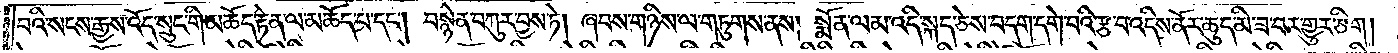བའི་སངས་རྒྱས་འོད་སྲུང་གི་མཆོད་རྟེན་ལ་མཆོད་པ་དང༌། བསྙེན་བཀུར་བྱས་ཏེ། ཞབས་གཉིས་ལ་གཏུགས་ནས། སྨོན་ལམ་འདི་སྐད་ཅེས་བདག་དགེ་བའི་རྩ་བ་འདིས་ནོར་ཆུད་མི་ཟ་བར་གྱུར་ཅིག །
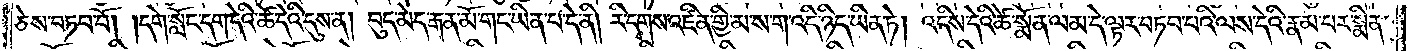ཅེས་བཏབ་བོ། །དགེ་སློང་དག་དེའི་ཚེ་དེའི་དུས་ན། བུད་མེད་རྒན་མོ་གང་ཡིན་པ་དེ་ནི། རི་དྭགས་འཛིན་གྱི་མ་ས་ག་འདི་ཉིད་ཡིན་ཏེ། འདིས་དེའི་ཚེ་སྨོན་ལམ་དེ་ལྟར་བཏབ་པའི་ལས་དེའི་རྣམ་པར་སྨིན་
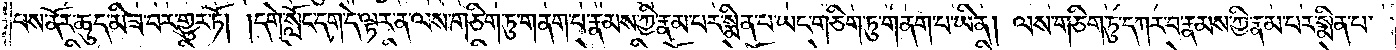པས་ནོར་ཆུད་མི་ཟ་བར་གྱུར་ཏོ། །དགེ་སློང་དག་དེ་ལྟར་ན་ལས་གཅིག་ཏུ་གནག་པ་རྣམས་ཀྱི་རྣམ་པར་སྨིན་པ་ཡང་གཅིག་ཏུ་གནག་པ་ཡིན། ལས་གཅིག་ཏུ་དཀར་བ་རྣམས་ཀྱི་རྣམ་པར་སྨིན་པ་
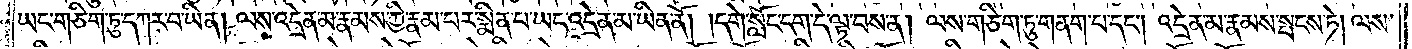ཡང་གཅིག་ཏུ་དཀར་བ་ཡིན། ལས་འདྲེན་མ་རྣམས་ཀྱི་རྣམ་པར་སྨིན་པ་ཡང་འདྲེན་མ་ཡིན་ནོ། །དགེ་སློང་དག་དེ་ལྟ་བས་ན། ལས་གཅིག་ཏུ་གནག་པ་དང༌། འདྲེན་མ་རྣམས་སྤངས་ཏེ། ལས་
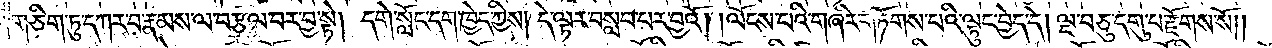གཅིག་ཏུ་དཀར་བ་རྣམས་ལ་བརྩལ་བར་བྱ་སྟེ། དགེ་སློང་དག་ཁྱེད་ཀྱིས། དེ་ལྟར་བསླབ་པར་བྱའོ། །ལོངས་པའི་གཞིར་གཏོགས་པའི་ལྟུང་བྱེད་དེ། ལྔ་བཅུ་དགུ་པ་རྫོགས་སོ༎
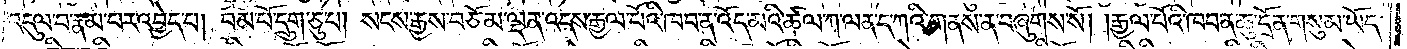འདུལ་བ་རྣམ་པར་འབྱེད་པ། བམ་པོ་དྲུག་ཅུ་པ། སངས་རྒྱས་བཅོམ་ལྡན་འདས་རྒྱལ་པོའི་ཁབ་ན་འོད་མའི་ཚལ་ཀ་ལན་ད་གའི་གནས་ན་བཞུགས་སོ། །རྒྱལ་པོའི་ཁབ་ན་ཆུ་དྲོན་གསུམ་ཡོད་
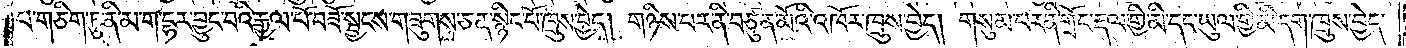པ་གཅིག་ཏུ་ནི་མ་ག་དྷར་བྱུང་བའི་རྒྱལ་པོ་བཟོ་སྦྱངས་གཟུགས་ཅན་སྙིང་པོ་ཁྲུས་བྱེད། གཉིས་པར་ནི་བཙུན་མོའི་འཁོར་ཁྲུས་བྱེད། གསུམ་པར་ནི་གྲོང་རྡལ་གྱི་མི་དང་ཡུལ་གྱི་མི་དག་ཁྲུས་བྱེད་
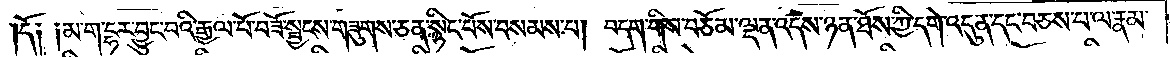དོ༑ ༑མ་ག་དྷར་བྱུང་བའི་རྒྱལ་པོ་བཟོ་སྦྱངས་གཟུགས་ཅན་སྙིང་པོས་བསམས་པ། བདག་གིས་བཅོམ་ལྡན་འདས་ཉན་ཐོས་ཀྱི་དགེ་འདུན་དང་བཅས་པ་ལ་རྣམ་
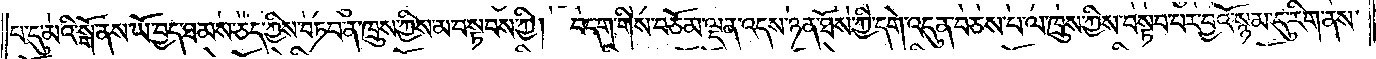པ་དུ་མའི་སྒོ་ནས་ཡོ་བྱད་ཐམས་ཅད་ཀྱིས་བཏབ་ན་ཁྲུས་ཀྱིས་མ་བསྟབས་ཀྱི། བདག་གིས་བཅོམ་ལྡན་འདས་ཉན་ཐོས་ཀྱི་དགེ་འདུན་བཅས་པ་ལ་ཁྲུས་ཀྱིས་བསྟབ་པར་བྱའོ་སྙམ་དུ་རིག་ནས་
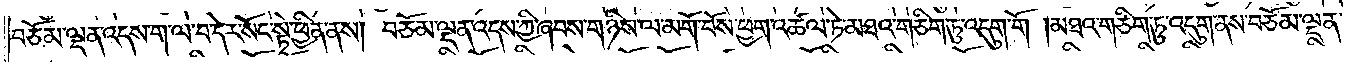བཅོམ་ལྡན་འདས་ག་ལ་བ་དེར་སོང་སྟེ་ཕྱིན་ནས། བཅོམ་ལྡན་འདས་ཀྱི་ཞབས་གཉིས་ལ་མགོ་བོས་ཕྱག་འཚལ་ཏེ་མཐའ་གཅིག་ཏུ་འདུག་གོ །མཐའ་གཅིག་ཏུ་འདུག་ནས་བཅོམ་ལྡན་
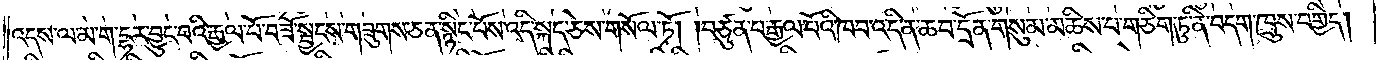འདས་ལ་མ་ག་དྷར་བྱུང་བའི་རྒྱལ་པོ་བཟོ་སྦྱངས་གཟུགས་ཅན་སྙིང་པོས་འདི་སྐད་ཅེས་གསོལ་ཏོ། །བཙུན་པ་རྒྱལ་པོའི་ཁབ་འདི་ན་ཆབ་དྲོན་གསུམ་མཆིས་པ་གཅིག་ཏུ་ནི་བདག་ཁྲུས་བགྱིད།
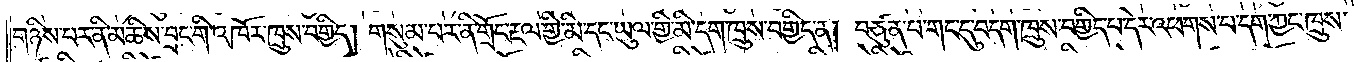གཉིས་པར་ནི་མཆིས་བྲང་གི་འཁོར་ཁྲུས་བགྱིད། གསུམ་པར་ནི་གྲོང་རྡལ་གྱི་མི་དང་ཡུལ་གྱི་མི་དག་ཁྲུས་བགྱིད་ན། བཙུན་པ་གང་དུ་བདག་ཁྲུས་བགྱིད་པ་དེར་འཕགས་པ་དག་ཀྱང་ཁྲུས་
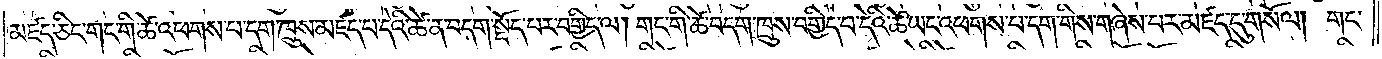མཛད་ཅིང་གང་གི་ཚེ་འཕགས་པ་དག་ཁྲུས་མཛད་པ་དེའི་ཚེ་ན་བདག་སྡོད་པར་བགྱིད་ལ། གང་གི་ཚེ་བདག་ཁྲུས་བགྱིད་པ་དེའི་ཚེ་ཡང་འཕགས་པ་དག་གིས་གཞེས་པར་མཛད་དུ་གསོལ། གང་
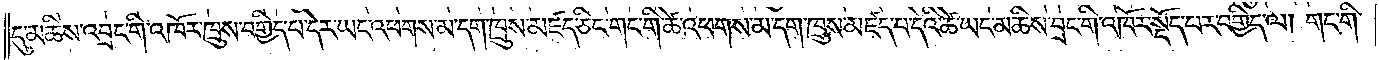དུ་མཆིས་འབྲང་གི་འཁོར་ཁྲུས་བགྱིད་པ་དེར་ཡང་འཕགས་མ་དག་ཁྲུས་མཛད་ཅིང་གང་གི་ཚེ་འཕགས་མ་དག་ཁྲུས་མཛད་པ་དེའི་ཚེ་ཡང་མཆིས་བྲང་གི་འཁོར་སྡོད་པར་བགྱིད་ལ། གང་གི་
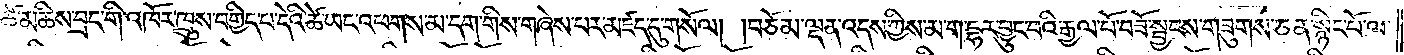ཚེ་མཆིས་བྲང་གི་འཁོར་ཁྲུས་བགྱིད་པ་དེའི་ཚེ་ཡང་འཕགས་མ་དག་གིས་གཞེས་པར་མཛད་དུ་གསོལ། །བཅོམ་ལྡན་འདས་ཀྱིས་མ་ག་དྷར་བྱུང་བའི་རྒྱལ་པོ་བཟོ་སྦྱངས་གཟུགས་ཅན་སྙིང་པོ་ལ་
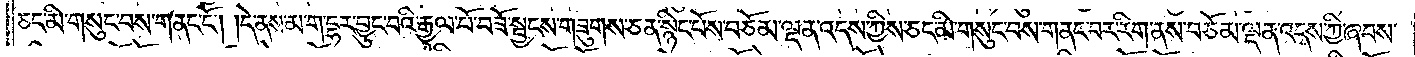ཅང་མི་གསུང་བས་གནང་ངོ༌། །དེ་ནས་མ་ག་དྷར་བྱུང་བའི་རྒྱལ་པོ་བཟོ་སྦྱངས་གཟུགས་ཅན་སྙིང་པོས་བཅོམ་ལྡན་འདས་ཀྱིས་ཅང་མི་གསུང་བས་གནང་བར་རིག་ནས་བཅོམ་ལྡན་འདས་ཀྱི་ཞབས་
